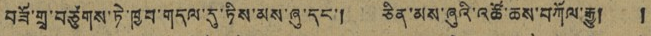བཟོ་གྲྭ་བཙུགས་ཏེ་ཁྱབ་གདལ་དུ་ཏིས་མས་ཞུ་དང་། ཅིན་མས་ཞུའི་འཚོ་ཆས་བཀོལ་རྒྱུ། །
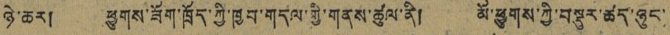ཉེ་ཆར། ཕྱུགས་ཟོག་ཁྲོད་ཀྱི་ཁྱབ་གདལ་གྱི་གནས་ཚུལ་ནི། མོ་ཕྱུགས་ཀྱི་བསྡུར་ཚད་ཉུང་
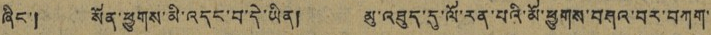ཞིང་། སོན་ཕྱུགས་མི་འདང་བ་དེ་ཡིན། མུ་འཐུད་དུ་ལོ་རན་པའི་མོ་ཕྱུགས་བཤའ་བར་བཀག་
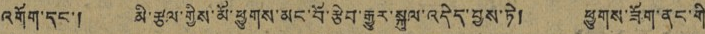འགོག་དང་། མི་རྩལ་གྱིས་མོ་ཕྱུགས་མང་པོ་རྩེབ་རྒྱུར་སྐུལ་འདེད་བྱས་ཏེ། ཕྱུགས་ཟོག་ནང་གི་
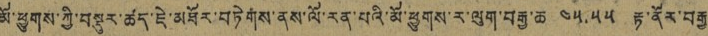མོ་ཕྱུགས་ཀྱི་བསྡུར་ཚད་ཇེ་མཐོར་བཏེགས་ནས་ལོ་རན་པའི་མོ་ཕྱུགས་ར་ལུག་བརྒྱ་ཆ ༤༥.༥༥ རྟ་ནོར་བརྒྱ
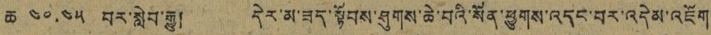ཆ ༤༠.༤༥ བར་སླེབ་རྒྱུ། དེར་མ་ཟད་སྟོབས་ཤུགས་ཆེ་བའི་སོན་ཕྱུགས་འདང་བར་འདེམ་འཇོག་
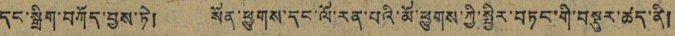དང་སྒྲིག་བཀོད་བྱས་ཏེ། སོན་ཕྱུགས་དང་ལོ་རན་པའི་མོ་ཕྱུགས་ཀྱི་སྤྱིར་བཏང་གི་བསྡུར་ཚད་ནི།
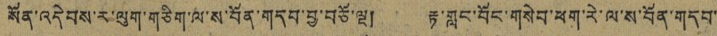སོན་འདེབས་ར་ལུག་གཅིག་ལ་ས་བོན་གདབ་བྱ་བཅོ་ལྔ། རྟ་གླང་བོང་གསེབ་ཕག་རེ་ལ་ས་བོན་གདབ་
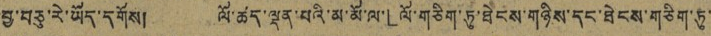བྱ་བཅུ་རེ་ཡོད་དགོས། ལོ་ཚད་ལྡན་པའི་མ་མོ་ལ་「ལོ་གཅིག་ཏུ་ཐེངས་གཉིས་དང་ཐེངས་གཅིག་ཏུ་
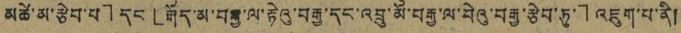མཚེ་མ་རྩེབ་པ」དང「རྒོད་མ་བརྒྱ་ལ་རྟེའུ་བརྒྱ་དང་འབྲུ་མོ་བརྒྱ་ལ་བེའུ་བརྒྱ་རྩེབ་ཏུ་」འཇུག་པ་ནི།
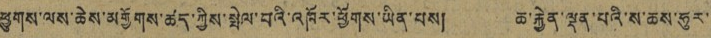ཕྱུགས་ལས་ཆེས་མགྱོགས་ཚད་ཀྱིས་སྤེལ་བའི་འཁོར་ཕྱོགས་ཡིན་པས། ཆ་རྐྱེན་ལྡན་པའི་ས་ཆས་ཧུར་
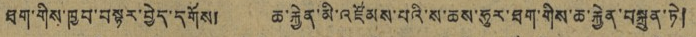ཐག་གིས་ཁྱབ་བསྟར་བྱེད་དགོས། ཆ་རྐྱེན་མི་འཛོམས་པའི་ས་ཆས་ཧུར་ཐག་གིས་ཆ་རྐྱེན་བསྐྲུན་ཏེ།
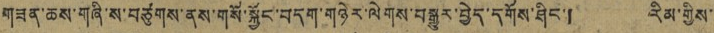གཟན་ཆས་གཞི་ས་བཙུགས་ནས་གསོ་སྐྱོང་བདག་གཉེར་ལེགས་བསྒྱུར་བྱེད་དགོས་ཤིང་། རིམ་གྱིས་
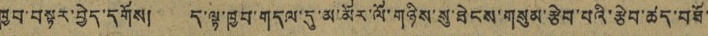ཁྱབ་བསྟར་བྱེད་དགོས། ད་ལྟ་ཁྱབ་གདལ་དུ་མ་མོར་ལོ་གཉིས་སུ་ཐེངས་གསུམ་རྩེབ་པའི་རྩེབ་ཚད་བཐོ་
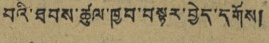བའི་ཐབས་ཚུལ་ཁྱབ་བསྟར་བྱེད་དགོས།
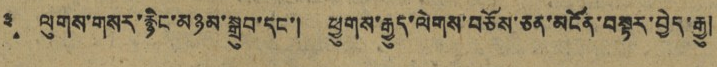༣. ལུགས་གསར་རྙིང་མཉམ་སྒྲུབ་དང་། ཕྱུགས་རྒྱུད་ལེགས་བཅོས་ཅན་མངོན་བསྟར་བྱེད་རྒྱུ།
